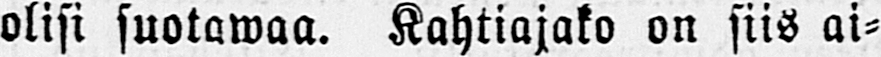olisi suotawaa. Kahtiajako on siis ai-
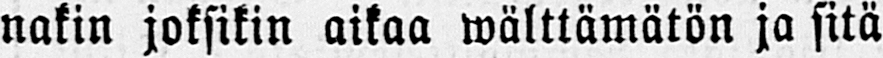nakin joksikin aikaa wälttämätön ja sitä
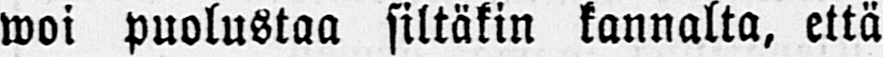woi puolustaa siltäkin kannalta, että
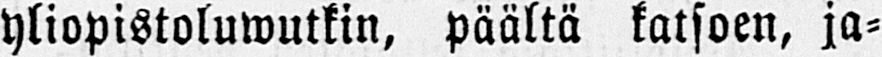yliopistoluwutkin, päältä katsoen, ja-
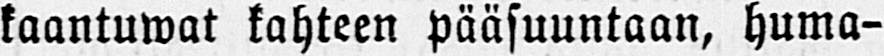kaantuwat kahteen pääsuuntaan, huma-
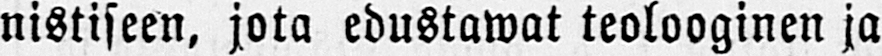nistiseen, jota edustawat teolooginen ja
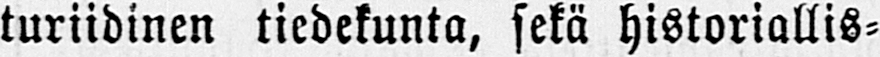turiidinen tiedekunta, sekä historiallis-
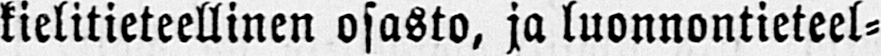kielitieteellinen osasto, ja luonnontieteel-
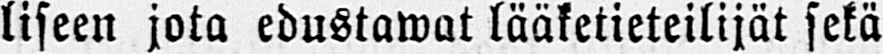liseen jota edustawat lääketieteilijät sekä
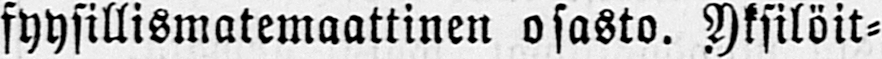fyysillismatemaattinen osasto. Yksilöit-
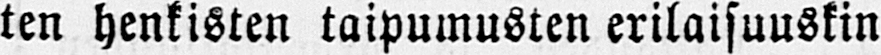ten henkisten taipumusten erilaisuuskin
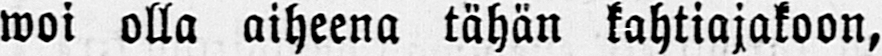woi olla aiheena tähän kahtiajakoon,
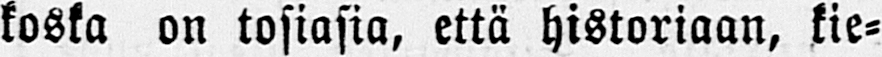koska on tosiasia, että historiaan, kie-
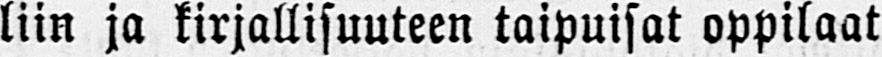liin ja kirjallisuuteen taipuisat oppilaat
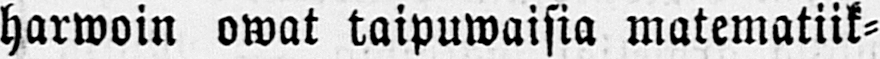harwoin owat taipuwaisia matematiik-
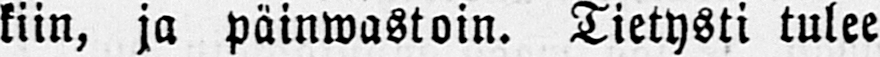kiin, ja päinwastoin. Tietysti tulee
